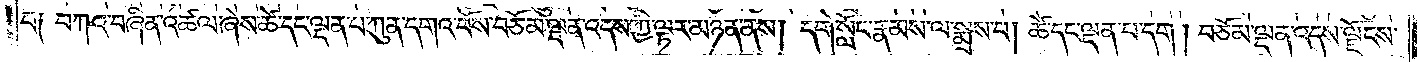པ༑ བཀའ་བཞིན་འཚལ་ཞེས་ཚེ་དང་ལྡན་པ་ཀུན་དགའ་བོས་བཅོམ་ལྡན་འདས་ཀྱི་ལྟར་མཉན་ནས། དགེ་སློང་རྣམས་ལ་སྨྲས་པ། ཚེ་དང་ལྡན་པ་དག། བཅོམ་ལྡན་འདས་ལྗོངས་
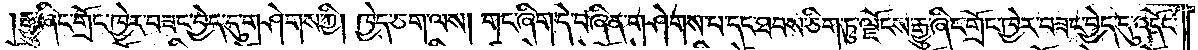།རྒྱུ་ཞིང་གྲོང་ཁྱེར་བཟང་བྱེད་དུ་གཤེགས་ཀྱི། ཁྱེད་ཅག་ལས། གང་ཞིག་དེ་བཞིན་གཤེགས་པ་དང་ཐབས་ཅིག་ཏུ་ལྗོངས་རྒྱུ་ཞིང་གྲོང་ཁྱེར་བཟང་བྱེད་དུ་འདོང་
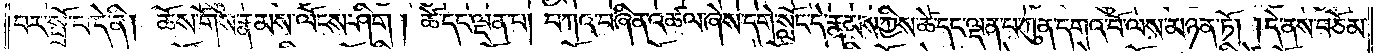བར་སྤྲོ་བ་དེ་ནི། ཆོས་གོས་རྣམས་ལོངས་ཤིག། ཚེ་དང་ལྡན་པ། བཀའ་བཞིན་འཚལ་ཞེས་དགེ་སློང་དེ་རྣམས་ཀྱིས་ཚེ་དང་ལྡན་པ་ཀུན་དགའ་བོ་ལས་མཉན་ཏོ། །དེ་ནས་བཅོམ་
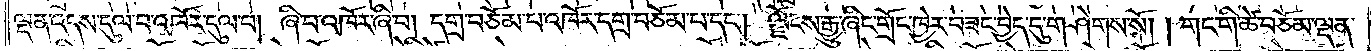ལྡན་འདས་དུལ་བ་འཁོར་དུལ་བ། ཞི་བ་འཁོར་ཞི་བ། དགྲ་བཅོམ་ཕ་འཁོར་དགྲ་བཅོམ་པ་དང༌། ལྗོངས་རྒྱུ་ཞིང་གྲོང་ཁྱེར་བཟང་བྱེད་དུ་གཤེགས་སོ། །གང་གི་ཚེ་བཅོམ་ལྡན་
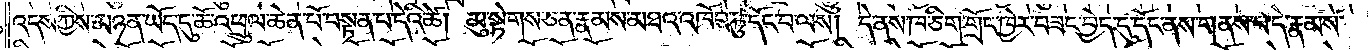འདས་ཀྱིས་མཉན་ཡོད་དུ་ཆོ་འཕྲུལ་ཆེན་པོ་བསྟན་པ་དེའི་ཚེ། མུ་སྟེགས་ཅན་རྣམས་མཐའ་འཁོབ་ཏུ་དོང་བ་ལས། དེ་ནས་ཁ་ཅིག་གྲོང་ཁྱེར་བཟང་བྱེད་དུ་དོང་ནས་གནས་པ་དེ་རྣམས་
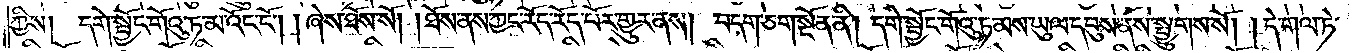ཀྱིས། དགེ་སྦྱོང་གོའུ་ཏ་མ་འོང་ངོ༌། །ཞེས་ཐོས་སོ། །ཐོས་ནས་ཀྱང་རོད་རོད་པོར་གྱུར་ནས། བདག་ཅག་སྔོན་ནི། དགེ་སྦྱོང་གོའུ་ཏ་མས་ཡུལ་དབུས་ནས་སྤྱུགས་སོ། །དེ་གལ་ཏེ་
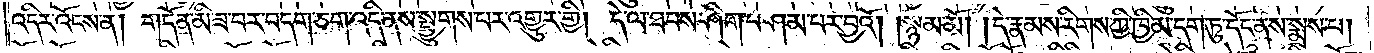འདིར་འོངས་ན། གདོན་མི་ཟ་བར་བདག་ཅག་འདི་ནས་སྤྱུགས་པར་འགྱུར་གྱི། དེ་ལ་ཐབས་ཤིག་བཤམ་པར་བྱའོ། །སྙམ་མོ། །དེ་རྣམས་རིགས་ཀྱི་ཁྱིམ་བདག་ཏུ་དོང་ནས་སྨྲས་པ།
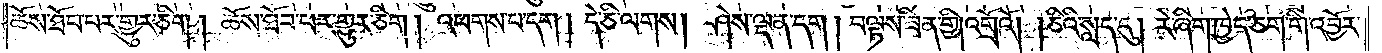ཆོས་ཐོབ་པར་གྱུར་ཅིག། ཆོས་ཐོབ་པར་གྱུར་ཅིག། འཕགས་པ་དག། དེ་ཅི་ལགས། ཤེས་ལྡན་དག། བལྟས་ཟིན་གྱི། འགྲོའོ། །ཅིའི་སླད་དུ། རེ་ཞིག་ཁྱེད་ཅག་གི་འབྱོར་
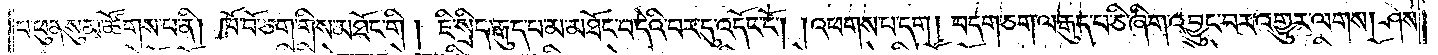བ་ཕུན་སུམ་ཚོགས་པ་ནི། ཁོ་བོ་ཅག་གིས་མཐོང་གི། ཇི་སྲིད་རྒུད་པ་མ་མཐོང་བ་དེའི་བར་དུ་འདོང་ངོ༌། །འཕགས་པ་དག། བདག་ཅག་ལ་རྒུད་པ་ཅི་ཞིག་འབྱུང་བར་འགྱུར་ལགས། ཤེས་
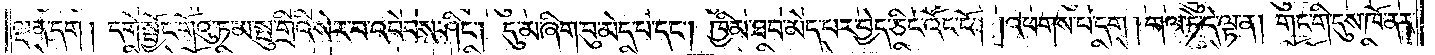ལྡན་དག། དགེ་སྦྱོང་གོའུ་ཏ་མ་སྤུ་གྲིའི་སེར་བ་འབེབས་ཤིང༌། དུ་མ་ཞིག་བུ་མེད་པ་དང༌། ཁྱིམ་ཐབ་མེད་པར་བྱེད་ཅིང་འོང་ངོ༌། །འཕགས་པ་དང༌། གལ་ཏེ་དེ་ལྟ་ན། གང་གི་དུས་ཁོ་ནར་
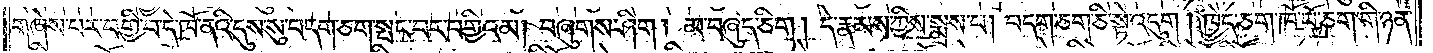གཞེས་པར་བགྱི་བ་དེ་ཁོ་ནའི་དུས་སུ་བདག་ཅག་སྤང་བར་བགྱིའམ། བཞུགས་ཤིག། མ་བཞུད་ཅིག། དེ་རྣམས་ཀྱིས་སྨྲས་པ། བདག་ཅག་ཅི་སྟེ་འདུག། ཁྱེད་ཅག་ཁོ་བོ་ཅག་གི་ཉན་
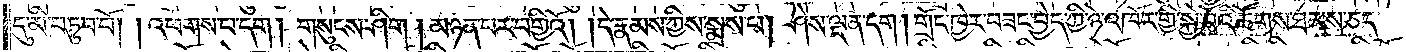དུ་མི་བཏུབ་བོ། །འཕགས་པ་དག། གསུངས་ཤིག། མཉན་པར་བགྱིའོ། །དེ་རྣམས་ཀྱིས་སྨྲས་པ། ཤེས་ལྡན་དག། གྲོང་ཁྱེར་བཟང་བྱེད་ཀྱི་ཉེ་འཁོར་གྱི་སྐྱེ་བོའི་ཚོགས་ཐམས་ཅད་
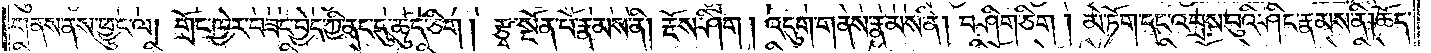གནས་ནས་ཕྱུང་ལ། གྲོང་ཁྱེར་བཟང་བྱེད་ཀྱི་ནང་དུ་ཚུད་ཅིག། རྩྭ་སྔོན་པོ་རྣམས་ནི། རྔོས་ཤིག། འདུག་གནས་རྣམས་ནི། བཤིག་ཅིག། མེ་ཏོག་དང་འབྲས་བུའི་ཤིང་རྣམས་ནི། ཆོད་
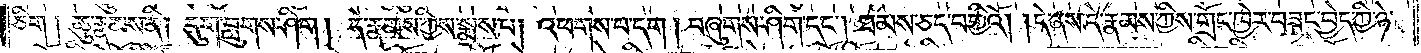ཅིག། ཆུ་རྣམས་ནི། དུག་བླུགས་ཤིག། དེ་རྣམས་ཀྱིས་སྨྲས་པ། འཕགས་པ་དག། བཞུགས་ཤིག་དང༌། ཐམས་ཅད་བགྱིའོ། །དེ་ནས་དེ་རྣམས་ཀྱིས་གྲོང་ཁྱེར་བཟང་བྱེད་ཀྱི་ཉེ་
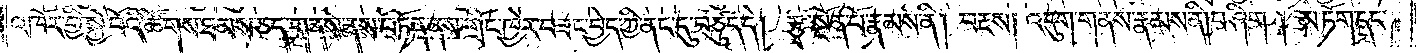འཁོར་གྱི་སྐྱེ་བོའི་ཚོགས་ཐམས་ཅད་གནས་ནས་བཏོན་ནས་གྲོང་ཁྱེར་བཟང་བྱེད་ཀྱི་ནང་དུ་བཙུད་དེ། རྩྭ་སྔོན་པོ་རྣམས་ནི། བརྔས། འདུག་གནས་རྣམས་ནི། བཤིག། མེ་ཏོག་དང་
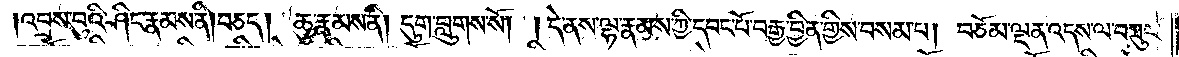།འབྲས་བུའི་ཤིང་རྣམས་ནི། བཅད། ཆུ་རྣམས་ནི། དུག་བླུགས་སོ། །དེ་ནས་ལྷ་རྣམས་ཀྱི་དབང་པོ་བརྒྱ་བྱིན་གྱིས་བསམ་པ། བཅོམ་ལྡན་འདས་ལ་བཀུར་
